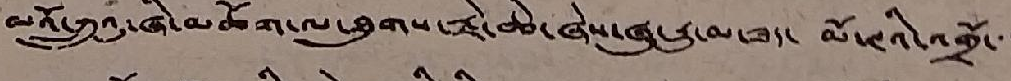མོའོ་ཀྲུའུ་ཞི་མཆོག་ལ་ཐུགས་རྗེ་ཆེ་ཞེས་ཞུ་རྒྱུ་མ་ཟད་ མོ་ཊའི་འགྲོ་་་
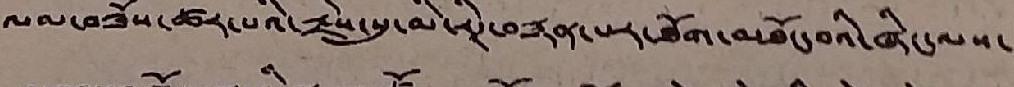ལམ་བཟོས་ཚར་པའི་རྗེས་སུ་མི་རིཊ་བརྙན་པར་ཐོག་མཐོང་བའི་ཞིང་ལས་
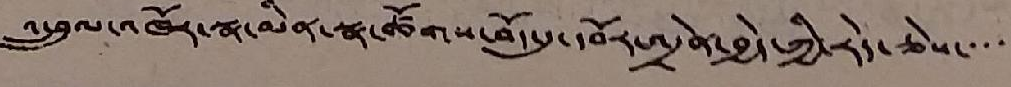འཕྲུལ་འཁོར་སྣ་མིན་སྣ་ཚོགས་བོད་དུ་དབོར་འདྲེན་བྱེད་ཀྱི་རེད་ཅེས་་་་་
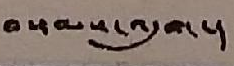བསམས་འདུག་།
